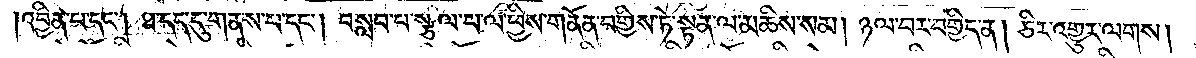།འབྱིན་པ་དང༌། ཐ་དད་དུ་གནས་པ་དང༌། བསླབ་པ་སྩལ་པ་ལ་ཕྱིས་གནོན་བགྱིས་ཏེ་སྟན་ལ་མཆིས་སམ། ཉལ་བར་བགྱིད་ན། ཅིར་འགྱུར་ལགས།
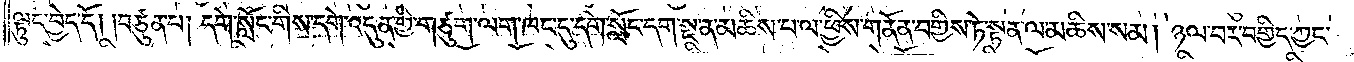ལྟུང་བྱེད་དོ། །བཙུན་པ། དགེ་སློང་གིས་དགེ་འདུན་གྱི་གཙུག་ལག་ཁང་དུ་དགེ་སློང་དག་སྔ་ན་མཆིས་པ་ལ་ཕྱིས་གནོན་བགྱིས་ཏེ་སྟན་ལ་མཆིས་སམ། ཉལ་བར་བགྱིད་ཀྱང་
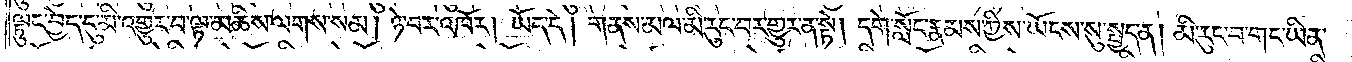ལྟུང་བྱེད་དུ་མི་འགྱུར་བ་ལྟ་མཆིས་ལགས་སམ། ཉེ་བར་འཁོར། ཡོད་དེ། གནས་མལ་མི་རུང་བར་གྱུར་ན་སྟེ། དགེ་སློང་རྣམས་ཀྱིས་ཡོངས་སུ་སྤྱད་ན། མི་རུང་བ་གང་ཡིན་
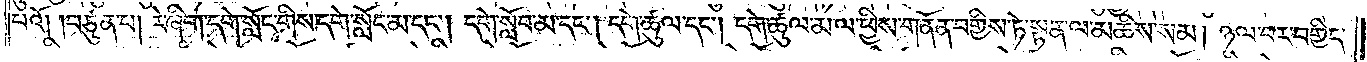པའོ། །བཙུན་པ། རེ་ཞིག་དགེ་སློང་གིས་དགེ་སློང་མ་དང༌། དགེ་སློང་མ་དང༌། དགེ་ཚུལ་དང༌། དགེ་ཚུལ་མ་ལ་ཕྱིས་གནོན་བགྱིས་ཏེ་སྟན་ལ་མཆིས་སམ། ཉལ་བར་བགྱིད་
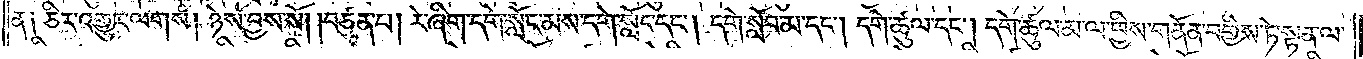ན༑ ཅིར་འགྱུར་ལགས། ཉེས་བྱས་སོ། །བཙུན་པ། རེ་ཞིག་དགེ་སློང་མས་དགེ་སློང་དང༌། དགེ་སློབ་མ་དང༌། དགེ་ཚུལ་དང༌། དགེ་ཚུལ་མ་ལ་ཕྱིས་གནོན་བགྱིས་ཏེ་སྟན་ལ་
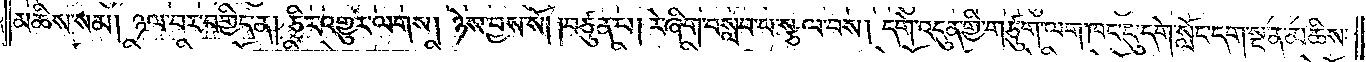མཆིས་སམ། ཉལ་བར་བགྱིད་ན། ཅིར་འགྱུར་ལགས། ཉེས་བྱས་སོ། །བཙུན་པ། རེ་ཞིག་བསླབ་པ་སྩལ་བས། དགེ་འདུན་གྱི་གཙུག་ལག་ཁང་དུ་དགེ་སློང་དག་སྔ་ན་མཆིས་
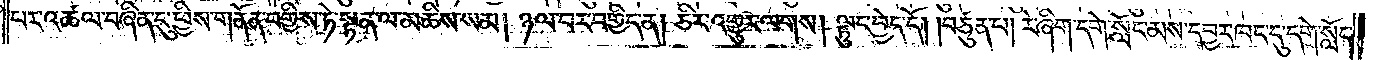པར་འཚལ་བཞིན་དུ་ཕྱིས་གནོན་བགྱིས་ཏེ་སྟན་ལ་མཆིས་སམ། ཉལ་བར་བགྱིད་ན། ཅིར་འགྱུར་ལགས། ལྟུང་བྱེད་དོ། །བཙུན་པ། རེ་ཞིག་དགེ་སློང་མས་དབྱར་ཁང་དུ་དགེ་སློང་
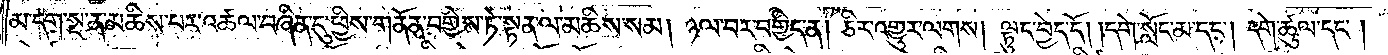མ་དག་སྔ་ན་མཆིས་པར་འཚལ་བཞིན་དུ་ཕྱིས་གནོན་བགྱིས་ཏེ་སྟན་ལ་མཆིས་སམ། ཉལ་བར་བགྱིད་ན། ཅིར་འགྱུར་ལགས། ལྟུང་བྱེད་དོ། །དགེ་སློང་མ་དང༌། དགེ་ཚུལ་དང༌།
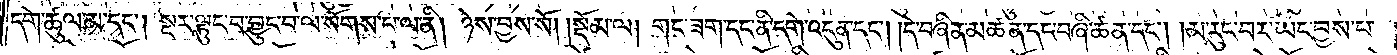དགེ་ཚུལ་མ་དང༌། སྔར་ལྟུང་བ་བྱུང་བ་ལ་སོགས་པ་ལ་ནི། ཉེས་བྱས་སོ། །སྡོམ་ལ། གང་ཟག་དང་ནི་དགེ་འདུན་དང༌། །དེ་བཞིན་མཚན་དང་བཞི་ཚན་དང༌། །མ་རུང་བར་ཡང་བྱས་པ་
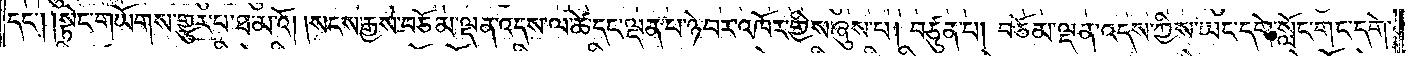དང༌། །སྟེང་གཡོགས་གྱུར་པ་ཐ་མའོ། །སངས་རྒྱས་བཅོམ་ལྡན་འདས་ལ་ཚེ་དང་ལྡན་པ་ཉེ་བར་འཁོར་གྱིས་ཞུས་པ། བཙུན་པ། བཅོམ་ལྡན་འདས་ཀྱིས་ཡང་དགེ་སློང་གང་དགེ་
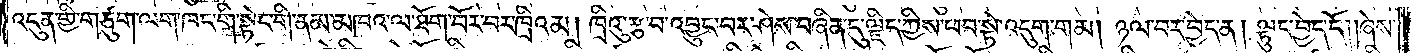འདུན་གྱི་གཙུག་ལག་ཁང་གི་སྟེང་གི་ནམ་མཁའ་ལ་ཐོག་བོར་བར་ཁྲིའམ། ཁྲིའུ་རྩ་བ་འབྱུང་བར་ཤེས་བཞིན་དུ་ལྗིད་ཀྱིས་ཕབ་སྟེ་འདུག་གམ། ཉལ་བར་བྱེད་ན། ལྟུང་བྱེད་དོ། །ཞེས་
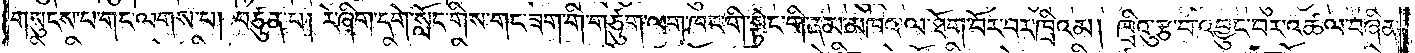གསུངས་པ་གང་ལགས་པ། བཙུན་པ། རེ་ཞིག་དགེ་སློང་གིས་གང་ཟག་གི་གཙུག་ལག་ཁང་གི་སྟེང་གི་ནམ་མཁའ་ལ་ཐོག་བོར་བར་ཁྲིའམ། ཁྲིའུ་རྩ་བ་འབྱུང་བར་འཚལ་བཞིན་
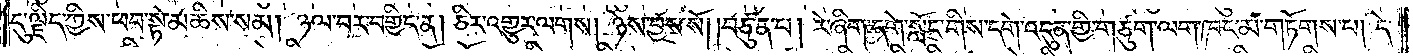དུ་ལྗིད་ཀྱིས་ཕབ་སྟེ་མཆིས་སམ། ཉལ་བར་བགྱིད་ན། ཅིར་འགྱུར་ལགས། ཉེས་བྱས་སོ། །བཙུན་པ། རེ་ཞིག་དགེ་སློང་གིས་དགེ་འདུན་གྱི་གཙུག་ལག་ཁང་མ་གཏོགས་པ། དེ་
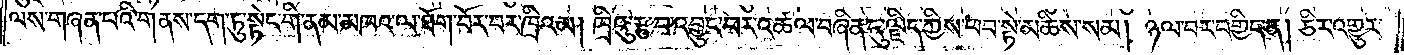ལས་གཞན་པའི་གནས་དག་ཏུ་སྟེང་གི་ནམ་མཁའ་ལ་ཐོག་བོར་བར་ཁྲིའུ་རྩ་བ་འབྱུང་བར་འཚལ་བཞིན་དུ་ལྗིད་ཀྱིས་ཕབ་སྟེ་མཆིས་སམ། ཉལ་བར་བགྱིད་ན། ཅིར་འགྱུར་
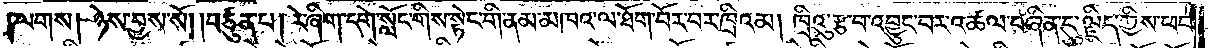ལགས། ཉེས་བྱས་སོ། །བཙུན་པ། རེ་ཞིག་དགེ་སློང་གིས་སྟེང་གི་ནམ་མཁའ་ལ་ཐོག་བོར་བར་ཁྲིའམ། ཁྲིའུ་རྩ་བ་འབྱུང་བར་འཚལ་བཞིན་དུ་ལྗིད་ཀྱིས་ཕབ་
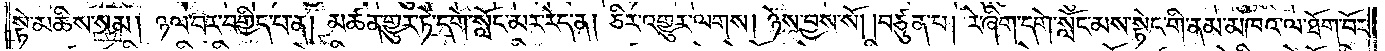སྟེ་མཆིས་སམ། ཉལ་བར་བགྱིད་པ་ན། མཚན་གྱུར་ཏེ་དགེ་སློང་མར་རེད་ན། ཅིར་འགྱུར་ལགས། ཉེས་བྱས་སོ། །བཙུན་པ། རེ་ཞིག་དགེ་སློང་མས་སྟེང་གི་ནམ་མཁའ་ལ་ཐོག་བོར་
